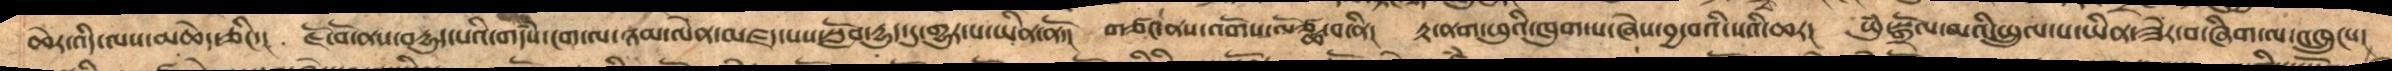ཆེར་འདི་ལས་མཆེད་ཅིང།  ཇོ་བོ་ནས་བདྱུད་པའི་གདཾས་ངག་ལ་ཉམ་ལེན་མཛད་པས་སློབ་དྱུད་དུ་གྱུར་པ་ཡིན་ནོ།   གཙང་ནས་འགོས་ལོཙྪ་བ་ནི།  རྟ་ནག་ཕུའི་ཁུག་པ་ཞེས་བྱ་བའི་སའི་ཆར།   ཡུཾ་སྒྲོལ་མའི་སྤྲུལ་པ་ཡིན་ཟེར་བ་ཞིག་ལ་འཁྲུངས།
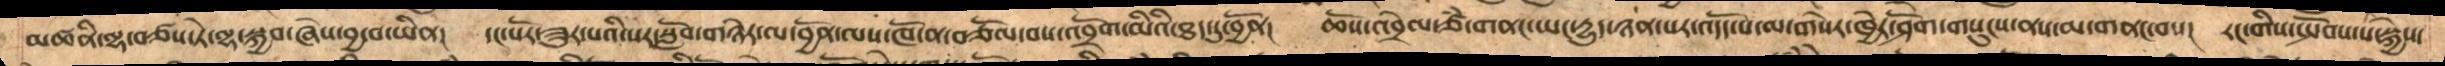མཚནི་ལྷ་བཙས་ཏེ་ལྷ་སྐྱབས་ཞེས་བྱ་བ་ཡིན།   དང་པོར་ཟུར་པའི་སར་སློབ་གཉེར་ལ་བྱོན་ལས་ཁོ་ན་བཅོལ་བས་འབྲོག་མིའི་ཐད་དུ་བྱོན།  ཆོས་འབྲེལ་ཙཾ་གནང་ཡང་དྱུད་ཉན་པར་འདོད་པ་ལ་གསེར་ཁྱེར་ཤོག་གསུངས་ནས་མ་གནང་བས།   རང་གིས་སྤོབས་པ་སྐྱེས་
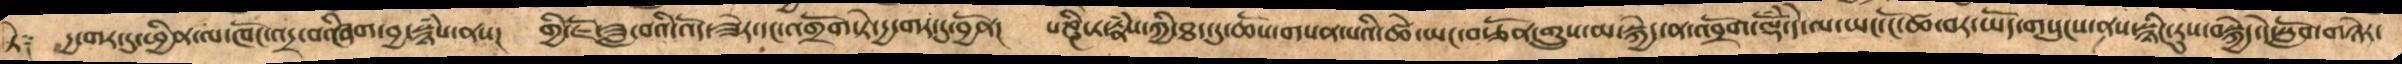ཏེ༑  དྱ་གར་དུ་ཕྱིན་ལ་ཁོང་འདྲ་བ་ཞིག་བྱ་སྙཾས་ནས།   གྱི་ཇོ་ཟླ་བའི་འོད་ཟེར་དང་འགྲོག་ཏེ་དྱ་གར་དུ་བྱོན།   པཎྜི་ཏ་རྣཾས་ཀྱི་ཐད་དུ་ཆོས་གསན་པའི་ཚེ་ཡང་བརྩོན་གྲུས་མ་སྐྱེད་ན་འབྲོག་ལྡོཾ་དེ་ལ་ཡང་ངོ་ཚ་བར་ཡོད་གསུངས་ནས་སྙིང་རུས་བསྐྱེད་དེ་སློབ་གཉེར་
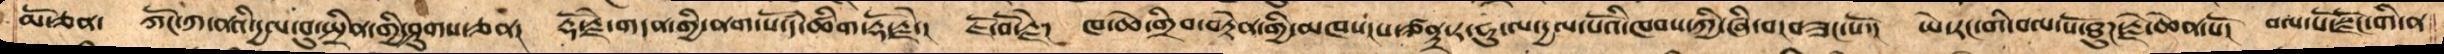མོ་ཅན།   ཀོང་ཀ་ནའི་དྱལ་བུ་སྤྲིན་གྱི་ཤུགས་ཅན།   རྡོ་རྗེ་གདན་གྱི་ནག་པོ་དཾ་ཚིག་རྡོ་རྗེ།   ཇོ་བོ་རྗེ།  ཁ་ཆེ་གྲིབ་བརྟེན་གྱི་མཁས་པ་ཙནྟྲ་ར་ཧུ་ལ་དྱལ་པོའི་ཁབས་ཀྱི་ཞི་བ་བཟང་པོ།   ཡེ་རང་གི་བལ་པོ་ཐུཌ་རྗེ་ཆེན་པོ།   བལ་པོ་སྫོང་གི་ན
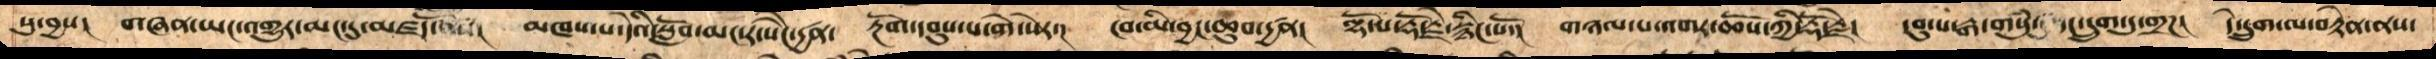སུ་བྱས།  གཞན་ཡང་འགྱུར་མང་དུ་མཛདོ།    མཁས་པ་དེའི་སློབ་མང་ར་སཻང་དྱཚན།     རྔོག་དབུས་པ་གེ་སེར།   ངབ་མི་བྱང་ཆུབ་དྱཚན།   ལྷོ་པ་རྡོ་རྗེ་སྙིང་པོ།   གཉལ་པ་མགར་ཆོས་ཀྱི་རྡོ་རྗེ།   དབུ་པ་རྒ་གསུཾ་དང་དྲུག་ཏུ་གྲཌ།   དེ་དྲུག་ལ་བརྟེན་ནས་
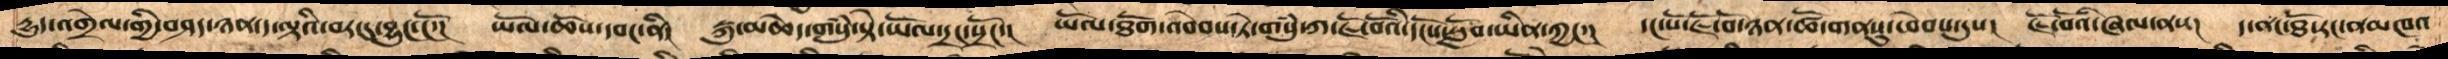དྱུད་འགྲེལ་གྱི་བཤད་ཉན་ད་ལྟའི་བར་དུ་བྱུང་ངོ་།   ཡོལ་ཆོས་དབང་ནི།   སྐུ་མཆེད་གསུཾ་སྟེ་ཡོལ་དྲང་སྲོང་།   ཡོལ་ཐོག་འབེབས་ཏེ་གསུཾ་ཀ་ཇོ་བོའི་དངོས་སློབ་ཡིན་ཀྱང་།   དང་པོ་ཇོ་བོ་ཉན་ཚོ་གནསུ་ཕེབས་དུས།  ཇོ་བོའི་ཞལ་ནས།  ད་ནང་ཐོ་རང་ནམཁའ
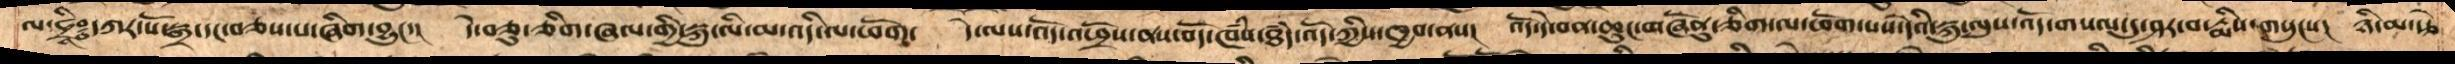ལ་ཧྲིཿདཀར་པོ་སྒྲ་དང་བཅས་པ་ཞིག་བྱུང་།   དེ་བཅུ་ཅིག་ཞལ་གྱི་སྐུ་ལི་མ་འདི་ལ་ཕོག་   དེ་ལས་འོད་འཕྲོས་ནས་བོད་ཁཾས་ཐཾད་འོད་ཀྱིས་ཁྱབ་ནས།  འོད་དེ་བན་ཆུང་གཞོནུ་ཅིག་ལ་ཕོག་པས་དེའི་སྐུ་ལུས་འོད་གསལ་དུ་ཤར་བ་རྨིས་གསུངས།  ཉི་མ་རྩེ
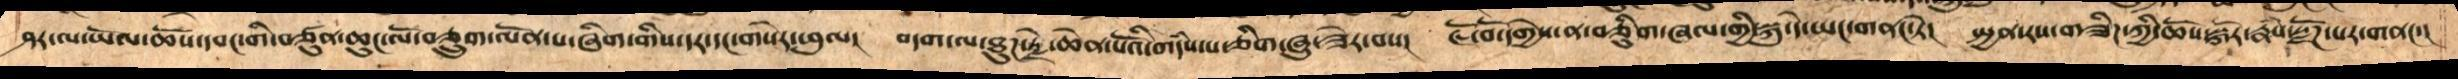ཤར་ལ་ཡོལ་ཆོས་དབང་གི་བཙུན་ཆུང་ལོ་བཅྲུག་ལོན་པ་ཞིག་གིས་དར་དང་གསེར་ཕུལ།   བདག་ལ་ཐུཌ་རྗེ་ཆེན་པོའི་གདཾས་པ་ཅིག་ཞུ་ཟེར་བས།   ཇོ་བོ་དགྱེས་ནས་བཅིུག་ཞལ་གྱི་སྐུ་དེ་ཡང་གནང་ཏེ།  སྤྱན་རས་གཟིཌ་ཀྱི་ཆོས་སྐོར་རྣཾས་སྫོཌ་པར་གནང་།
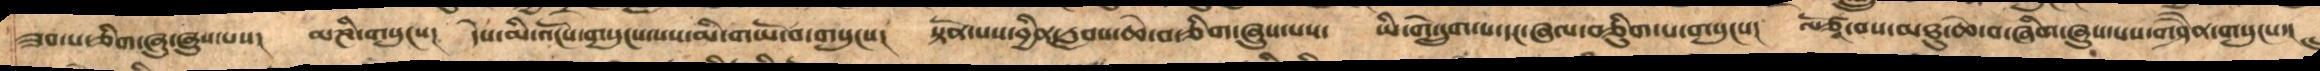ཟབ་མོ་ཅིག་ཞུ་ཞུས་པས།   མ་ཎི་གསུངས།   དེས་མི་འོངས་གསུངས་པས་མི་གཡོ་བ་གསུངས།  སྟོན་པས་བྱིན་རླབས་ཆེ་བ་ཅིག་ཞུ་པས།   ཡི་གེ་དྲུག་པ་དང་ཞལ་བཅིུག་པ་གསུངས།  ལོ་ཙཱ་བས་མཐུ་ཆེ་བ་ཞིག་ཞུས་པས་གཤཻན་གསུངས་།
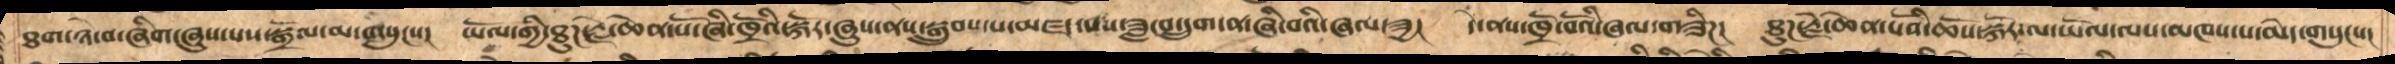ཐག་ཉེ་བ་ཞིག་ཞུས་པས་སྒྲོལ་མ་གསུངས།  ཡོལ་གྱི་ཐུཌ་རྗེ་ཆེན་པོ་ཞི་ཁྲོའི་སྐོར་ཞུས་ནས་སྒྲུབས་པ་མཛད་པས་ཟླ་བ་དྲུག་ན་ཞི་བའི་ཞལ་ཟྱ།  དེ་ནས་ཁྲོ་བོའི་ཞལ་གཟིཌ།   ཐུཌ་རྗེ་ཆེན་པོའི་ཆོས་སྐོར་ལ་ཡོལ་ལས་མཁས་པ་མེད་གསུངས།
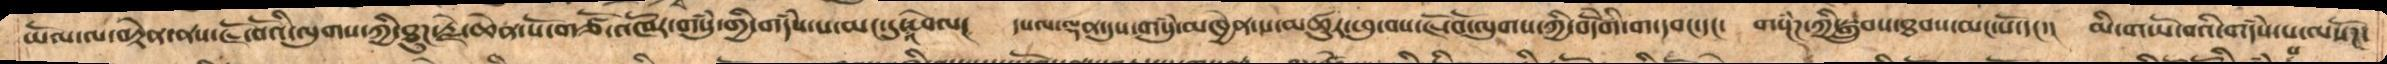ཡོལ་ལ་བརྟེན་ནས་ཇོ་བོའི་ལུགས་ཀྱི་ཐུགས་རྗེ་ཆེན་པོ་གཙོ་འཁོར་གསུཾ་གྱི་གདཾས་པ་མང་དུ་འཕེལ།    དཔལ་ལྡན་དུས་གསུཾ་མཁྱེན་དང་མཚུར་ཕུ་བས་ཇོ་བོ་ལུགས་ཀྱི་བདེོགི་ག་དབང་དང་  གསྔཾཌ་ཀྱི་སྒྲུབས་ཐབས་མང་པོ་དང་།  མི་གཡོ་བའི་གདཾས་པ་ལསོཌ་
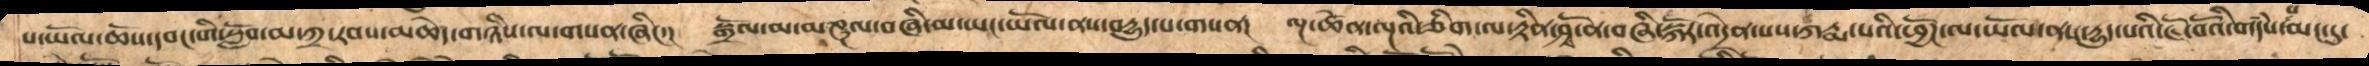པ་ཡོལ་ཆོས་དབང་གི་སློབ་མ་ཀྲ་རབས་མཆེད་གཉིས་ལ་གསན་ཞིང་།    སྒྲོལ་མ་མཎྜལ་བཞི་མ་ཡང་ཡོལ་ནས་བདྱུད་པ་གསན།   ལྔ་ཚེན་ལྔའི་ཅིག་ལ་རྟིན་ཤྭོ་ན་བཞི་བསྐོར་འདྲེན་པས་ཀརྨ་པའི་ཕྱོཌ་ལ་ཡོལ་ནས་དྱུད་པའི་ཇོ་བོའི་གདཾས་པ་མང་དུ་
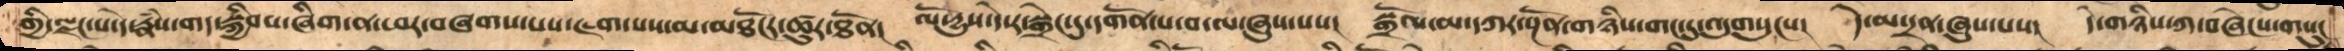གྱི་ལྗང་པ་དེ་རྣཾས་གད་སྐྱིབས་ཞིག་ན་ཕར་བཞག་པས་ཇག་པས་མ་མཐོངར་ཚུར་ཐོན།  ལོ་དྱུས་དེ་ར་སྒྲེང་དུ་དགོན་པ་བ་ལ་ཞུས་པས།    སྒྲོལ་མ་དཀར་སྔོན་གཉིས་གང་དུ་འདུགསུངས།   དེ་མ་དྲན་ཞུས་པས།   དེ་གཉིས་ཀ་བཞེངསགསུངས
